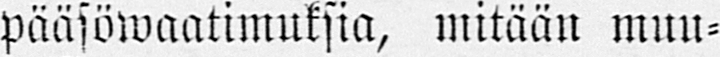pääsöwaatimuksia, mitään muu-
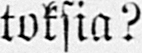toksia?
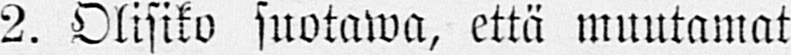2. Olisiko suotawa, että muutamat
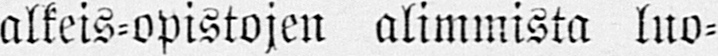alkeis-opistojen alimmista luo-
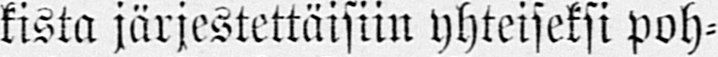kista järjestettäisiin yhteiseksi poh-
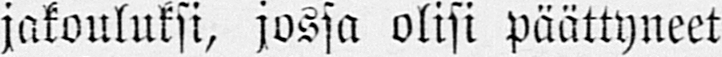jakouluksi, jossa olisi päättyneet
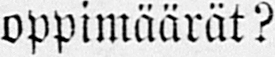oppimäärät?
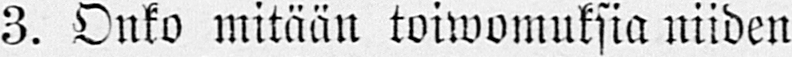3. Onko mitään toiwomuksia niiden
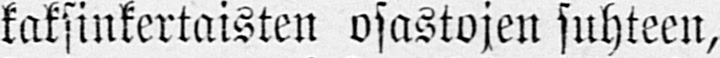kaksinkertaisten osastojen suhteen,
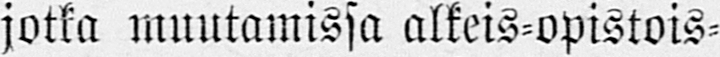jotka muutamissa alkeis-opistois-
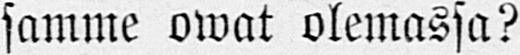samme owat olemassa?
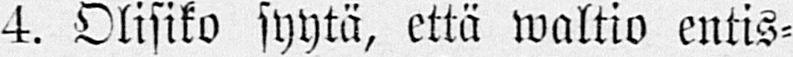4. Olisiko syytä, että waltio entis-
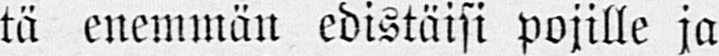tä enemmän edistäisi pojille ja
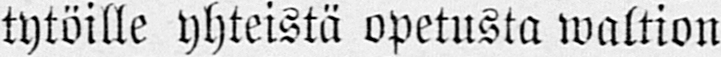tytöille yhteistä opetusta waltion
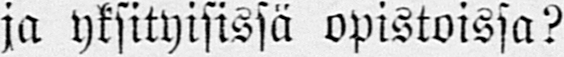ja yksityisissä opistoissa?
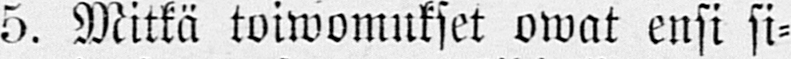5. Mitkä toiwomukset owat ensi si-
